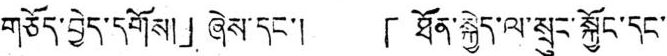གཅོད་བྱེད་དགོས།」ཞེས་དང་། 「ཐོན་སྐྱེད་ལ་སྲུང་སྐྱོང་དང་
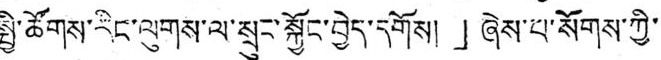སྤྱི་ཚོགས་རིང་ལུགས་ལ་སྲུང་སྐྱོང་བྱེད་དགོས།」ཞེས་པ་སོགས་ཀྱི་
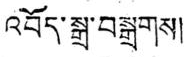འབོད་སྒྲ་བསྒྲགས།
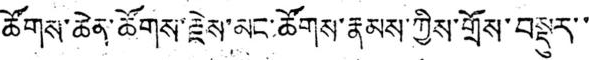ཚོགས་ཆེན་ཚོགས་རྗེས་མང་ཚོགས་རྣམས་ཀྱིས་གྲོས་བསྡུར་་
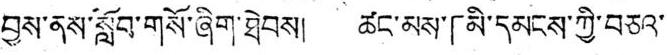བྱས་ནས་སློབ་གསོ་ཞིག་ཐེབས། ཚང་མས་「མི་དམངས་ཀྱི་བཅའ་
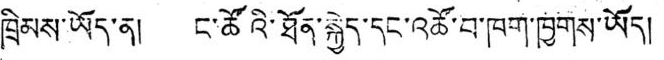ཁྲིམས་ཡོད་ན། ང་ཚོའི་ཐོན་སྐྱེད་དང་འཚོ་བ་ཁག་ཁྱགས་ཡོད།
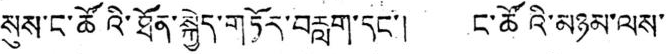སུས་ང་ཚོའི་ཐོན་སྐྱེད་གཏོར་བརླག་དང་། ང་ཚོའི་མཉམ་ལས་
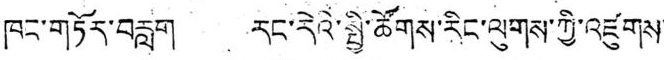ཁང་གཏོར་བརླག རང་རེའི་སྤྱི་ཚོགས་རིང་ལུགས་ཀྱི་འཛུགས་
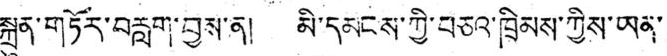སྐྲུན་གཏོར་བརླག་བྱས་ན། མི་དམངས་ཀྱི་བཅའ་ཁྲིམས་ཀྱིས་ཡན་
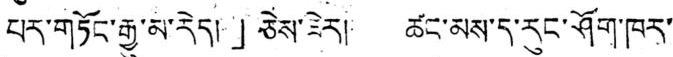པར་གཏོང་རྒྱུ་མ་རེད།」ཅེས་ཟེར། ཚང་མས་ད་རུང་ཤོག་ཁར་
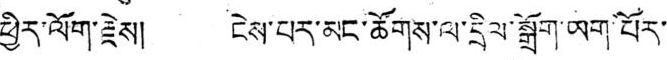ཕྱིར་ལོག་རྗེས། ངེས་པར་མང་ཚོགས་ལ་དྲིལ་སྒྲོག་ཡག་པོར་
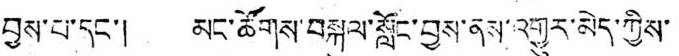བྱས་པ་དང་། མང་ཚོགས་བསྐུལ་སློང་བྱས་ནས་འགྱུར་མེད་ཀྱིས་
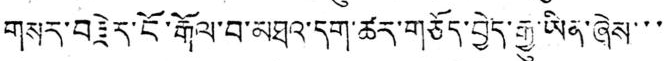གསར་བརྗེར་ངོ་རྒོལ་བ་མཐའ་དག་ཚར་གཅོད་བྱེད་རྒྱུ་ཡིན་ཞེས་་་་
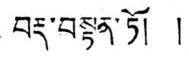བརྡ་བསྟན་ཏོ། །
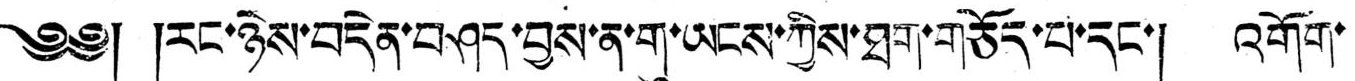༄༅། །རང་ཉེས་བདེན་བཤད་བྱས་ན་གུ་ཡངས་ཀྱིས་ཐག་གཅོད་པ་དང་། འགོག་
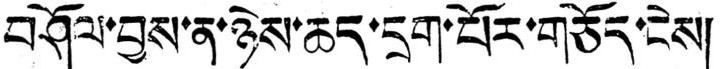བཤོལ་བྱས་ན་ཉེས་ཆད་དྲག་པོར་གཅོད་ངེས།
